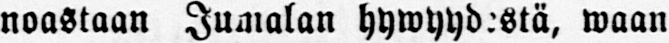noastaan Jumalan hywyydestä, waan
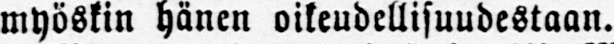myöskin hänen oikeudellisuudestaan.
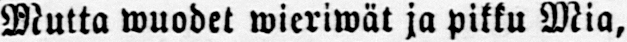Mutta wuodet wieriwät ja pikku Mia,
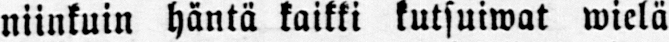niinkuin häntä kaikki kutsuiwat wielä
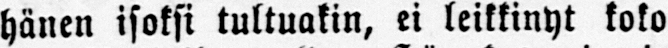hänen isoksi tultuakin, ei leikkinyt koko
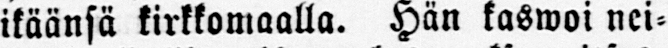ikäänsä kirkkomaalla. Hän kaswoi nei-
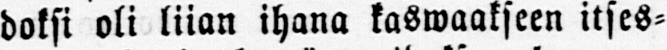doksi oli liian ihana kaswaakseen itses-
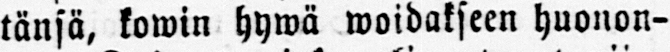tänsä, kowin hywä woidakseen huonon-
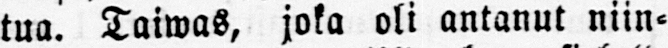tua. Taiwas, joka oli antanut niin-
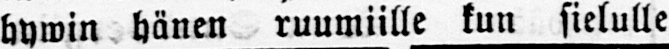hywin hänen ruumiille kun sielulle
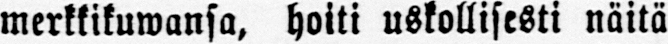merkkikuwansa, hoiti uskollisesti näitä
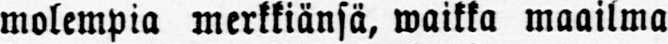molempia merkkiänsä, waikka maailma
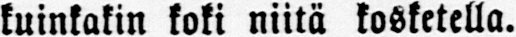kuinkakin koki niitä kosketella.
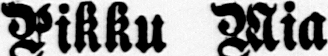Pikku Mia
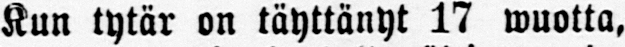Kun tytär on täyttänyt 17 wuotta,
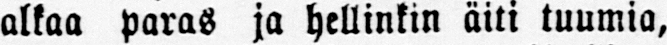alkaa paras ja hellinkin äiti tuumia,
